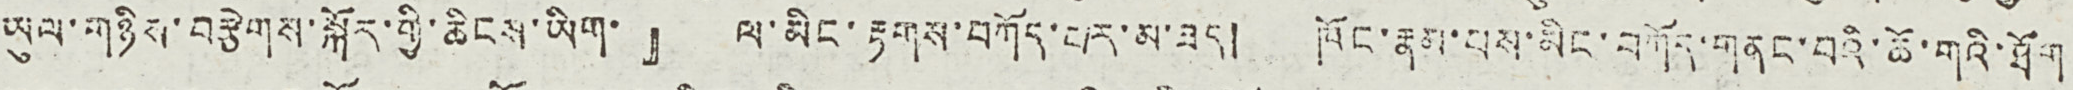ཡུལ་གཉིས་བརྩེགས་སྐོར་གྱི་ཆིངས་ཡིག་』 ལ་མིང་རྟགས་བཀོད་པར་མ་ཟད། ཁོང་རྣམ་པས་མིང་བཀོད་གནང་བའི་ཆོ་གའི་ཐོག
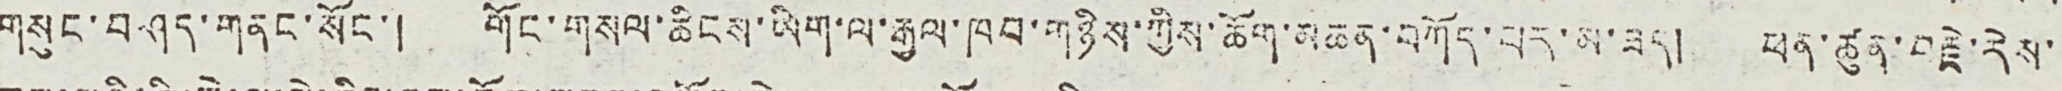གསུང་བཤད་གནང་སོང་། གོང་གསལ་ཆིངས་ཡིག་ལ་རྒྱལ་ཁབ་གཉིས་ཀྱིས་ཆོག་མཆན་བཀོད་པར་མ་ཟད། ཕན་ཚུན་བརྗེ་རེས་
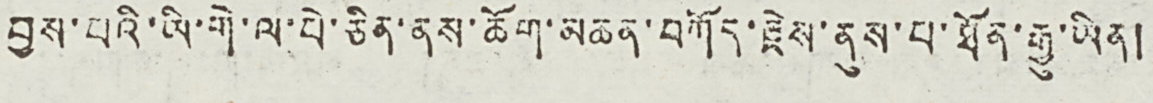བྱས་པའི་ཡི་གེ་ལ་པེ་ཅིན་ནས་ཆོག་མཆན་བཀོད་རྗེས་ནུས་པ་ཐོན་རྒྱུ་ཡིན།
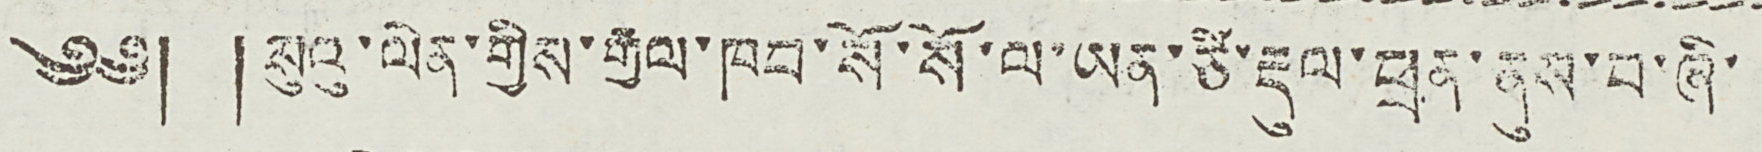༄༅། །སུའུ་ལེན་གྱིས་རྒྱལ་ཁབ་སོ་སོ་ལ་ཡན་ཙི་རྡུལ་ཕྲན་ནུས་པ་ཞི་
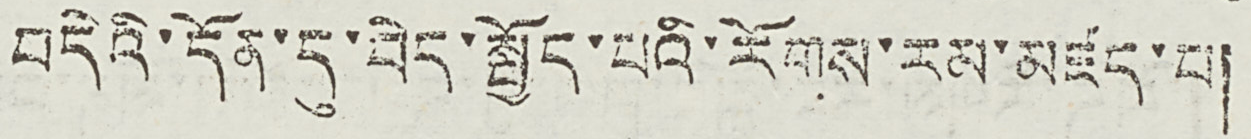བདེའི་དོན་དུ་བེད་སྤྱོད་པའི་རོགས་རམ་མཛད་པ།
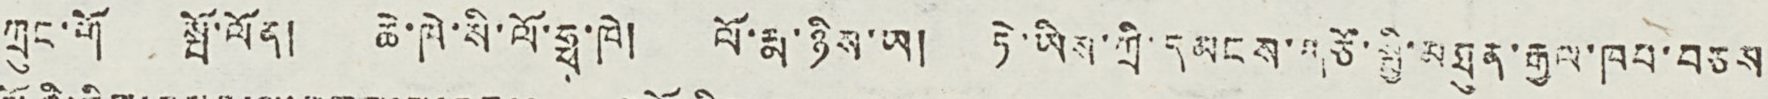ཀྲུང་གོ སྤོ་ལོན། ཆེ་ཁེ་སི་ལོ་ཧྥ་ཁེ། ལོ་རྨ་ཉིས་ཡ། ཏེ་ཡིས་ཀྲི་དམངས་གཙོ་སྤྱི་མཐུན་རྒྱལ་ཁབ་བཅས
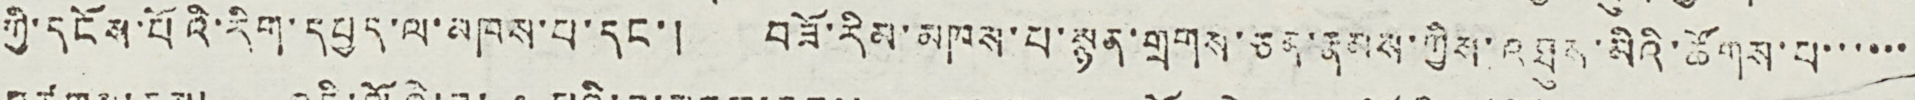ཀྱི་དངོས་པོའི་རིག་དཔྱད་ལ་མཁས་པ་དང་། བཟོ་རིམ་མཁས་པ་སྙན་གྲགས་ཅན་རྣམས་ཀྱིས་འཐུན་མིའི་ཚོགས་པ་་་་་་
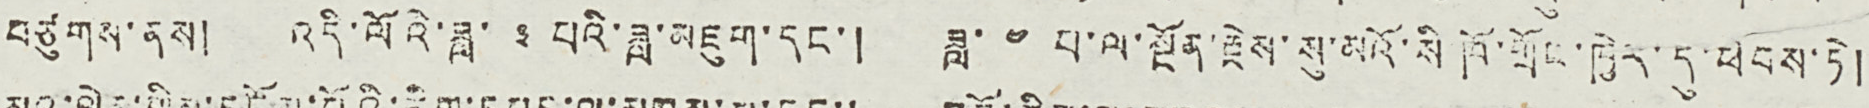བཙུགས་ནས། འདི་ལོའི་ཟླ་ ༣ པའི་ཟླ་མཇུག་དང་། ཟླ་ ༤ པ་ལ་སྔོན་རྗེས་སུ་མའོ་སི ཁོ་གྲོང་ཁྱེར་དུ་ཕེབས་ཏེ།
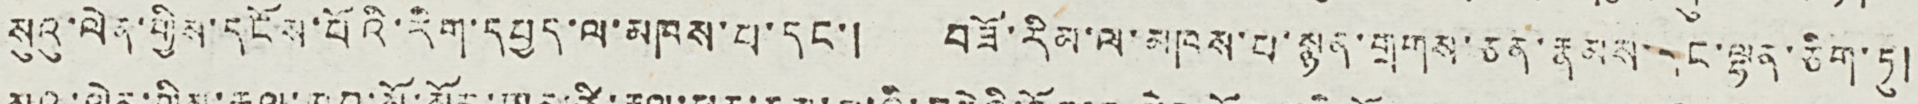སུའུ་ལེན་གྱིས་དངོས་པོའི་རིག་དཔྱད་ལ་མཁས་པ་དང་། བཟོ་རིམ་ལ་མཁས་པ་སྙན་གྲགས་ཅན་རྣམས་དང་ལྷན་ཅིག་ཏུ།
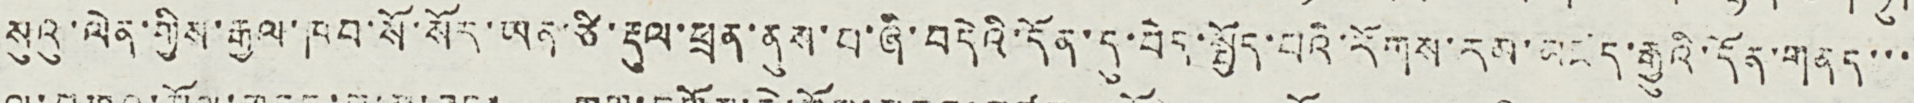སུའུ་ལེན་གྱིས་རྒྱལ་ཁབ་སོ་སོར་ཡན་ཙི་རྡུལ་ཕྲན་ནུས་པ་ཞི་བདེའི་དོན་དུ་བེད་སྤྱོད་པའི་རོགས་རམ་མཛད་རྒྱུའི་དོན་གནད་་་
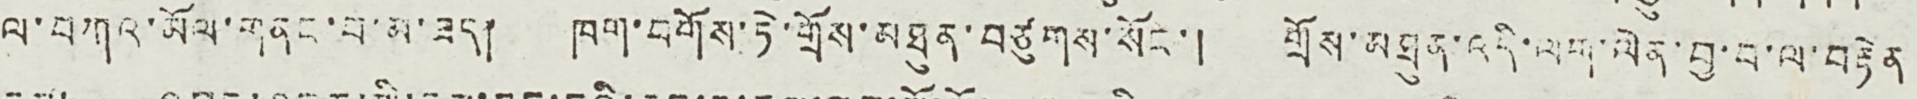ལ་བཀའ་མོལ་གནང་བ་མ་ཟད། ཁག་བགོས་ཏེ་གྲོས་མཐུན་བཙུགས་སོང་། གྲོས་མཐུན་འདི་ལག་ལེན་བྱ་བ་ལ་བརྟེན
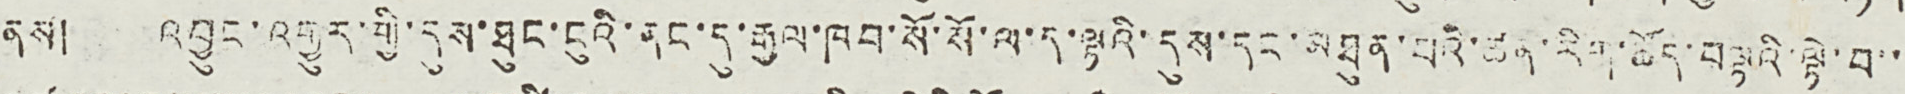ནས། འབྱུང་འགྱུར་གྱི་དུས་ཐུང་ངུའི་ནང་དུ་རྒྱལ་ཁབ་སོ་སོ་ལ་ད་ལྟའི་དུས་དང་མཐུན་པའི་ཚན་རིག་ཚོད་བལྟའི་ལྟེ་བ་་
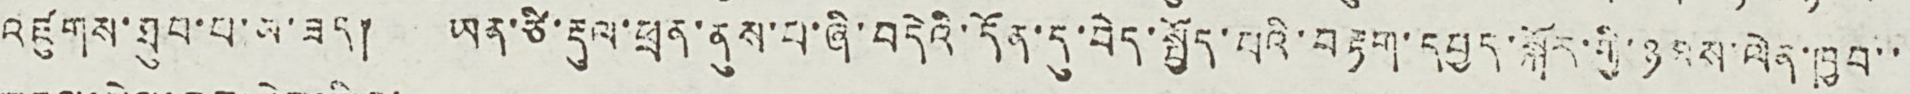འཛུགས་ཐུབ་པ་མ་ཟད། ཡན་ཙི་རྡུལ་ཕྲན་ནུས་པ་ཞི་བདེའི་དོན་དུ་བེད་སྤྱོད་པའི་བརྟག་དཔྱད་སྐོར་གྱི་ཉམས་ལེན་ཁྱབ་་
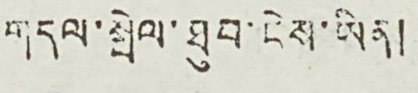གདལ་སྦེལ་ཐུབ་ངེས་ཡིན།
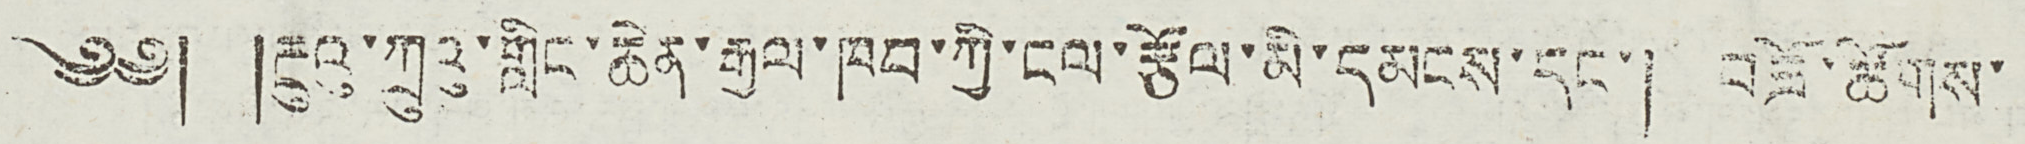༄༅། །རྔུའུ་ཀྲུའུ་གླིང་ཆེན་རྒྱལ་ཁབ་ཀྱི་ངལ་རྩོལ་མི་དམངས་དང་། བཟོ་ཚོགས་
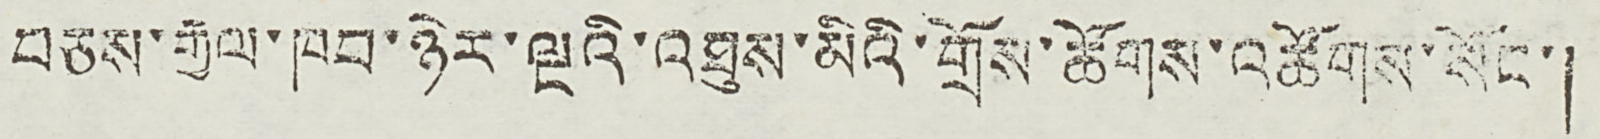བཅས་རྒྱལ་ཁབ་ཉེར་ལྔའི་འཐུས་མིའི་གྲོས་ཚོགས་འཚོགས་སོང་།
